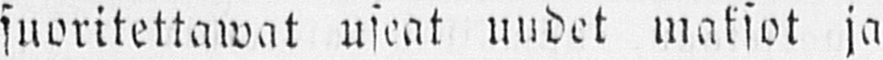suoritettawat useat uudet maksot ja
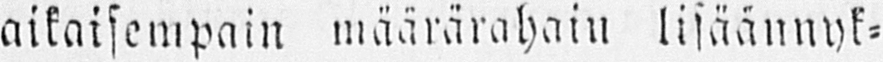aikaisempani määrärahain lisäännyk-
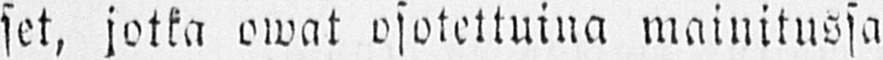set, jotka owat osotettuina mainitussa
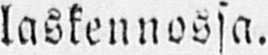laskennossa.
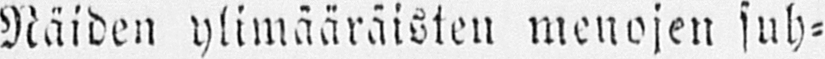Näiden ylimääräisten menojen suh-
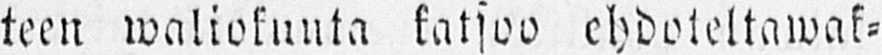teen waliokunta katsoo ehdoteltawak-
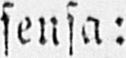sensa:
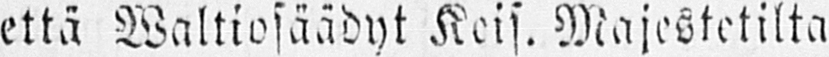että Waltiosäädyt Keis. Majestetilta
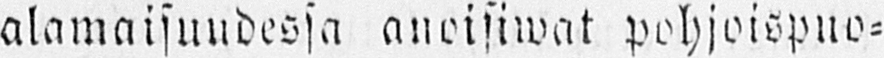alamaisuudessa anoisiwat pohjoispuo-
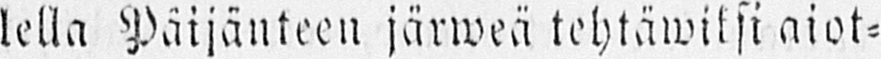lella Päijänteen järweä tehtäwiksi aiot-
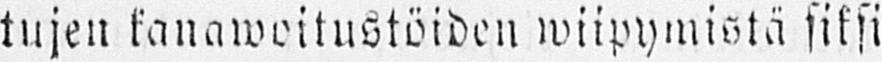tujen kanawoitustöiden wiipymistä siksi
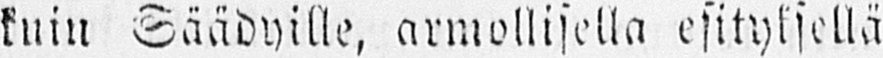kuin Säädyille, armollisella esityksellä
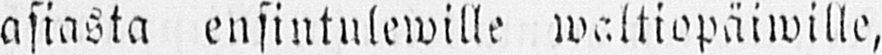asiasta ensintulewille waltiopäiwille,
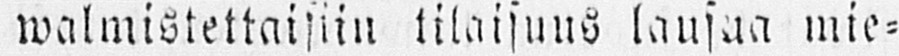walmistettaisiin tilaisuus lausua mie-
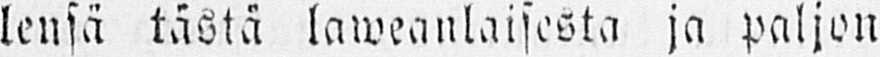lensä tästä laweanlaisesta ja paljon
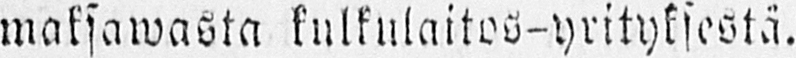maksawasta kulkulaitos-yrityksestä.
